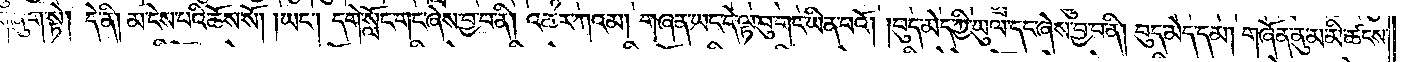གཞུག་སྟེ། དེ་ནི། མ་ངེས་པའི་ཆོས་སོ། །ཡང༌། དགེ་སློང་གང་ཞེས་བྱ་བ་ནི། འཆར་ཀའམ། གཞན་ཡང་དེ་ལྟ་བུ་གང་ཡིན་པའོ། །བུད་མེད་ཀྱི་ཡུལ་དང་ཞེས་བྱ་བ་ནི། བུད་མེད་དམ། གཞོན་ནུ་མ་མི་ཚངས་
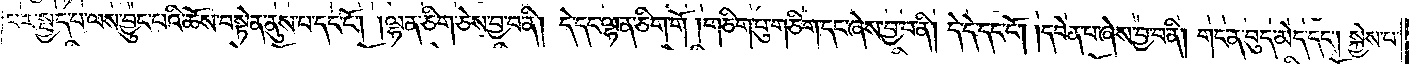པར་སྤྱད་པ་ལས་བྱུང་བའི་ཆོས་བསྟེན་ནུས་པ་དང་ངོ༌། །ལྷན་ཅིག་ཅེས་བྱ་བ་ནི། དེ་དང་ལྷན་ཅིག་གོ །གཅིག་པུ་གཅིག་དང་ཞེས་བྱ་བ་ནི། དེ་དེ་དང་ངོ༌། །དབེན་པ་ཞེས་བྱ་བ་ནི། གང་ན་བུད་མེད་དང༌། སྐྱེས་པ་
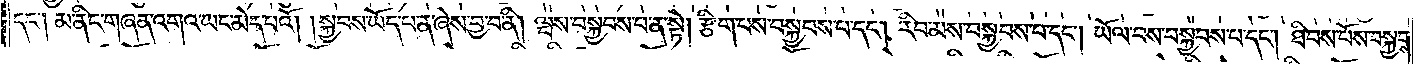དང༌། མ་ནིང་གཞན་འགའ་ཡང་མེད་པའོ། །སྐྱབས་ཡོད་པ་ན་ཞེས་བྱ་བ་ནི། ལྔས་བསྐྱབས་པ་ན་སྟེ། རྩིག་པས་བསྐྱབས་པ་དང༌། རིབ་མས་བསྐྱབས་པ་དང༌། ཡོལ་བས་བསྐྱབས་པ་དང༌། ཐིབས་པོས་བསྐྱབས་
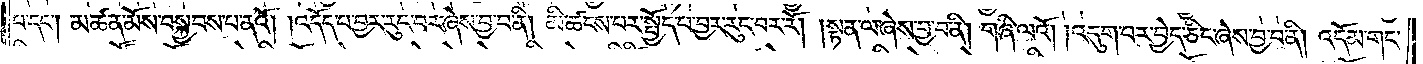པ་དང༌། མཚན་མོས་བསྐྱབས་པ་ནའོ། །འདོད་པ་བྱར་རུང་བར་ཞེས་བྱ་བ་ནི། མི་ཚངས་པར་སྤྱོད་པ་བྱར་རུང་བར་རོ། །སྟན་ལ་ཞེས་བྱ་བ་ནི། གཞི་ལའོ། །འདུག་པར་བྱེད་ཅིང་ཞེས་བྱ་བ་ནི། འདོམ་གང་
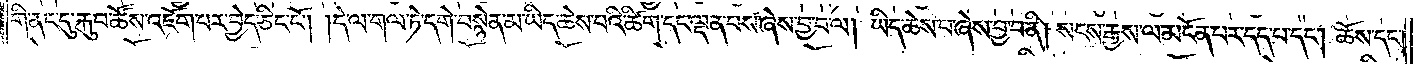གི་ནང་དུ་རྐུབ་ཚོས་འཇོག་པར་བྱེད་ཅིང་ངོ༌། །དེ་ལ་གལ་ཏེ་དགེ་བསྙེན་མ་ཡིད་ཆེས་པའི་ཚིག་དང་ལྡན་པས་ཞེས་བྱ་བ་ལ། ཡིད་ཆེས་པ་ཞེས་བྱ་བ་ནི། སངས་རྒྱས་ལ་མངོན་པར་དད་པ་དང༌། ཆོས་དང༌།
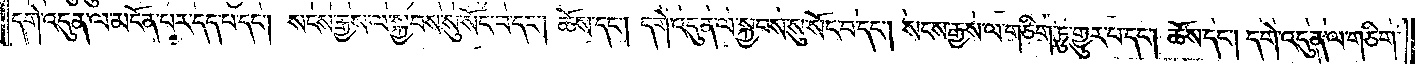དགེ་འདུན་ལ་མངོན་པར་དད་པ་དང༌། སངས་རྒྱས་ལ་སྐྱབས་སུ་སོང་བ་དང༌། ཆོས་དང༌། དགེ་འདུན་ལ་སྐྱབས་སུ་སོང་བ་དང༌། སངས་རྒྱས་ལ་གཅིག་ཏུ་གྱུར་བ་དང༌། ཆོས་དང༌། དགེ་འདུན་ལ་གཅིག་
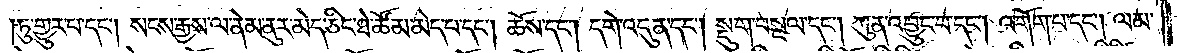ཏུ་གྱུར་པ་དང༌། སངས་རྒྱས་ལ་ནེམ་ནུར་མེད་ཅིང་ཐེ་ཚོམ་མེད་པ་དང༌། ཆོས་དང༌། དགེ་འདུན་དང༌། སྡུག་བསྔལ་དང༌། ཀུན་འབྱུང་བ་དང༌། འགོག་པ་དང༌། ལམ་
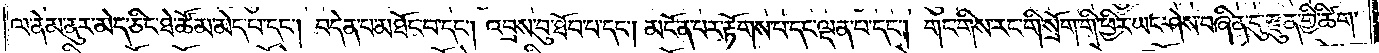ལ་ནེམ་ནུར་མེད་ཅིང་ཐེ་ཚོམ་མེད་པ་དང༌། བདེན་པ་མཐོང་བ་དང༌། འབྲས་བུ་ཐོབ་པ་དང༌། མངོན་པར་རྟོགས་པ་དང་ལྡན་པ་དང༌། གང་གིས་རང་གི་སྲོག་གི་ཕྱིར་ཡང་ཤེས་བཞིན་དུ་རྫུན་གྱི་ཚིག་
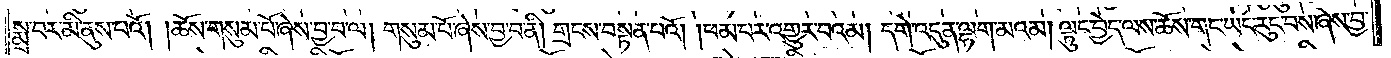སྨྲ་བར་མི་ནུས་པའོ། །ཆོས་གསུམ་པོ་ཞེས་བྱ་བ་ལ། གསུམ་པོ་ཞེས་བྱ་བ་ནི། གྲངས་བསྟན་པའོ། །ཕམ་པར་འགྱུར་བའམ། དགེ་འདུན་ལྷག་མའམ། ལྟུང་བྱེད་ལས་ཆོས་གང་ཡང་རུང་བས་ཞེས་བྱ་
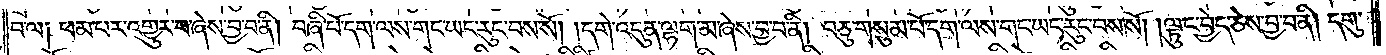བ་ལ༑ ཕམ་པར་འགྱུར་བ་ཞེས་བྱ་བ་ནི། བཞི་པོ་དག་ལས་གང་ཡང་རུང་བས་སོ། །དགེ་འདུན་ལྷག་མ་ཞེས་བྱ་བ་ནི། བཅུ་གསུམ་པོ་དག་ལས་གང་ཡང་རུང་བས་སོ། །ལྟུང་བྱེད་ཅེས་བྱ་བ་ནི། དགུ་
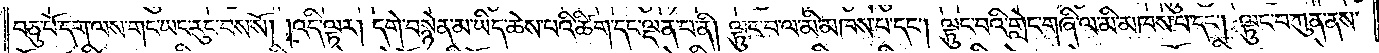བཅུ་པོ་དག་ལས་གང་ཡང་རུང་བས་སོ། །འདི་ལྟར། དགེ་བསྙེན་མ་ཡིད་ཆེས་པའི་ཚིག་དང་ལྡན་པ་ནི། ལྟུང་བ་ལ་མི་མཁས་པ་དང༌། ལྟུང་བའི་གླེང་གཞི་ལ་མི་མཁས་པ་དང༌། ལྟུང་བ་ཀུན་ནས་
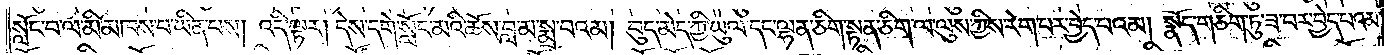སློང་བ་ལ་མི་མཁས་པ་ཡིན་པས། འདི་ལྟར། དེས་དགེ་སློང་མའི་ཆོས་བླ་མ་སྨྲ་བའམ། བུད་མེད་ཀྱི་ཡུལ་དང་ལྷན་ཅིག་སྟན་ཅིག་ལ་ལུས་ཀྱིས་རེག་པར་བྱེད་པའམ། སྣོད་གཅིག་ཏུ་ཟ་བར་བྱེད་པའམ་
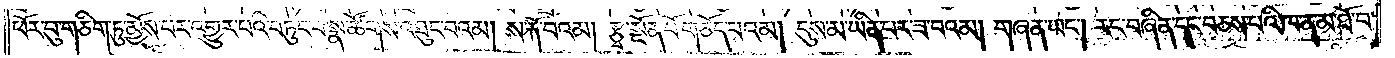ཕོར་བུ་གཅིག་ཏུ་མྱོས་པར་འགྱུར་པའི་བཏུང་བ་སྣ་ཚོགས་འཐུང་བའམ། ས་རྐོ་བའམ། རྩྭ་སྔོན་པོ་གཅོད་པའམ། དུས་མ་ཡིན་པར་ཟ་བའམ། གཞན་ཡང༌། རང་བཞིན་དང་བཅས་པའི་ཁ་ན་མ་ཐོ་བ་
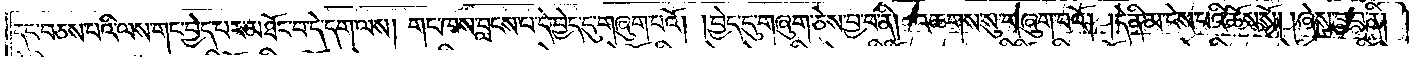དང་བཅས་པའི་ལས་གང་བྱེད་པར་མཐོང་བ་དེ་དག་ལས། གང་ཁས་བླངས་པ་དེ་བྱེད་དུ་གཞུག་པའོ། །བྱེད་དུ་གཞུག་ཅེས་བྱ་བ་ནི། འཆགས་སུ་གཞུག་པའོ། །དེ་ནི་མ་ངེས་པའི་ཆོས་སོ། །ཞེས་བྱ་བ་ནི།
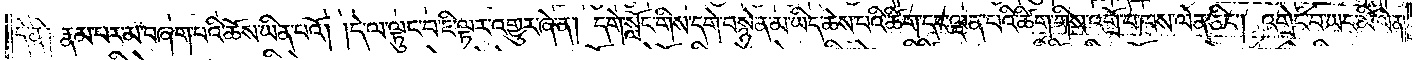དེ་ནི༑ རྣམ་པར་མ་བཞག་པའི་ཆོས་ཡིན་པའོ། །དེ་ལ་ལྟུང་བ་ཇི་ལྟར་འགྱུར་ཞེ་ན། དགེ་སློང་གིས་དགེ་བསྙེན་མ་ཡིད་ཆེས་པའི་ཚིག་དང་ལྡན་པའི་ཚིག་གིས་འགྲོ་བ་ཁས་ལེན་ཅིང༌། འགྲེང་བ་ཡང་མི་ལེན།
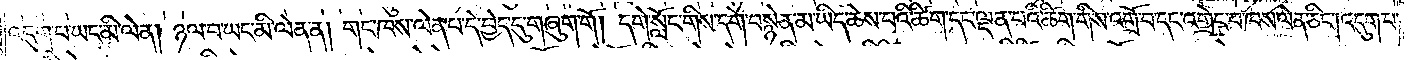འདུག་པ་ཡང་མི་ལེན། ཉལ་བ་ཡང་མི་ལེན་ན། གང་ཁས་ལེན་པ་དེ་བྱེད་དུ་གཞུག་གོ། དགེ་སློང་གིས་དགེ་བསྙེན་མ་ཡིད་ཆེས་པའི་ཚིག་དང་ལྡན་པའི་ཚིག་གིས་འགྲོ་བ་དང་འགྲེང་བ་ཁས་ལེན་ཅིང༌། འདུག་པ་
